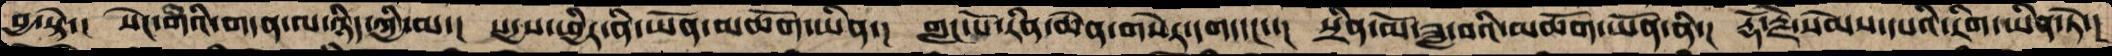བྱ་སྟེ་།  སེང་གེའི་གདན་ལ་ཉིད་ཀྱི་མ་།   སདྱས་ཕྱིར་ནི་ཡོན་མཆོག་ཡིན་།  གླང་པོ་རིན་ཆེན་གསེར་དག་དང་་།   སྲིན་མོ་ཟླ་བའི་མཆོག་ཡོན་ནི་།  རྡོ་རྗེ་སེམས་དཔའི་རིག་ཡིན་ཏེ་།
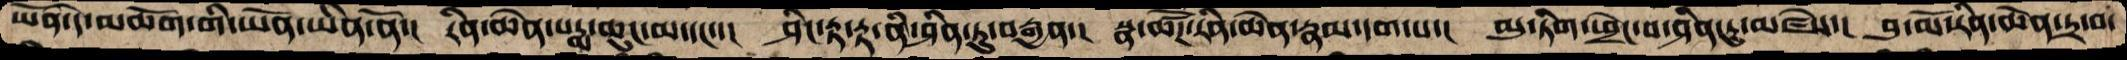ཡོན་དེ་མཆོག་གི་ཡོན་ཡིན་ནོ་།   རིན་ཆེན་པདྨ་ཆུང་མ་དང་་།   ཤིང་རྟ་རྟ་ནི་ཤིན་ཏུ་བརྒྱན་།   སྣ་ཚོཌ་རིན་ཆེན་རྣམ་དག་པ་།  མུ་ཏིག་ཕྲེང་བ་ཤིན་ཏུ་མཛེས་།  བུ་མོ་རིན་ཆེན་དྲ་བ་
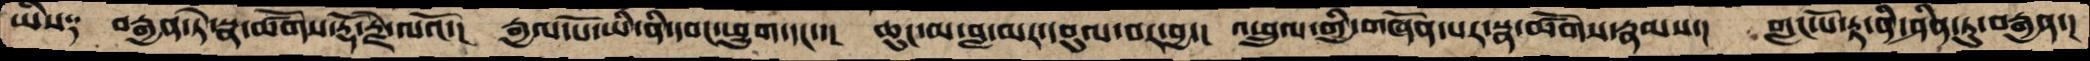ཡིས༑    བརྒྱན་ཏེ་སྣ་ཚོགས་རྡོ་རྗེ་ལའོ་།  རྒྱལ་པོ་ཡི་ནི་དབང་ཕྱུག་དང་་།  ཆུང་མ་བླ་མར་དབུལ་བར་བྱ་།  འཕྲུལ་གྱི་གཞོན་པར་སྣ་ཚོགས་རྣམས་།   གླང་པོ་རྟ་ནི་ཤིན་ཏུ་བརྒྱན་།
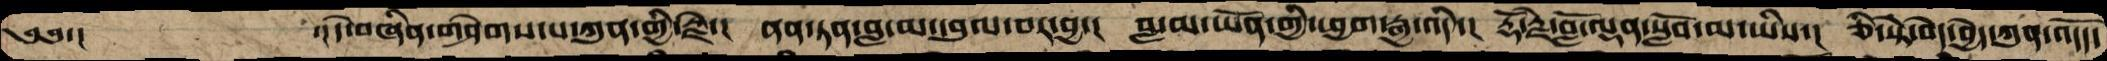༄༅་།             ་།དེ་བཞིན་གཤེགས་པ་ཀུན་གྱི་རྗེ་།  ནན་ཏན་བླ་མ་དབུལ་བར་བྱ་།   བླ་མ་ཡོན་གྱི་ཕྱག་རྒྱ་འདི་།  རྡོ་རྗེ་བློ་ལྡན་སློབ་མ་ཡིས་།  ཅི་སྟེ་བདེ་བྱེད་ཀུན་འདོད་
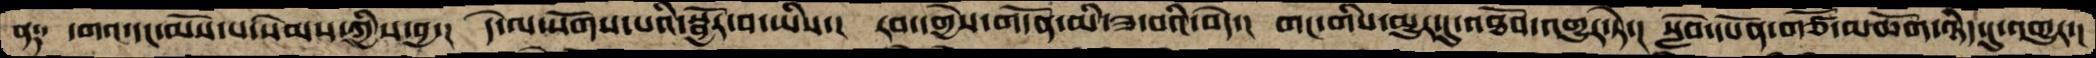ན༑  དགའ་དང་མོས་པ་སེམས་ཀྱིས་བྱ་།  དེ་ལ་སོགས་པའི་སྦྱོར་བ་ཡིས་།  རབ་དགྱེས་གདོན་མི་ཟ་བའི་བདེ་།  གང་གིས་མྱུར་དུ་འཐོབ་འགྱུར་ཏེ་།  སློབ་དཔོན་གཙོ་མཆོག་ཉིད་དུ་འགྱུར་།
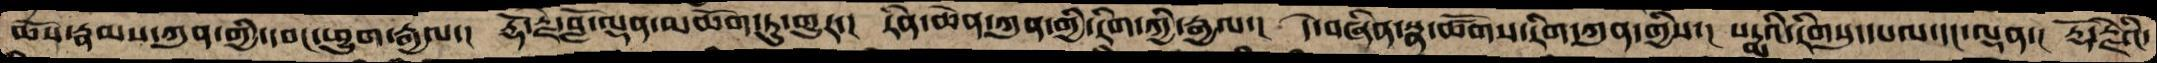ཆོས་རྣམས་ཀུན་གྱི་དབང་ཕྱུག་རྒྱལ་།  རྡོ་རྗེ་བློ་ལྡན་མཆོག་ཏུ་གྱུར་།   རིན་ཆེན་ཀུན་གྱི་རིག་ཀྱི་རྒྱལ་།  དེ་བཞིན་སྣ་ཚོགས་རིག་ཀུན་གྱིས་།  པདྨའི་རིགསུ་དཔལ་དང་ལྡན་།  རྡོ་རྗེའི་
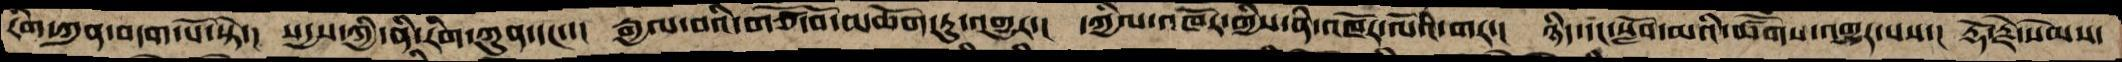རིག་ཀུན་བདག་པོ་སྟེ་།  སདྱས་ཀྱི་ནི་རིག་ཀུན་དང་་།  རྒྱལ་བའི་གཙོ་བོ་མཆོག་ཏུ་འགྱུར་།  དཀྱིལ་འཁོར་གྱིས་ནི་འཁོར་ལོའི་གར་།  ཉིད་དང་སློབ་མའི་ཚོགས་འགྱུར་པས་།  རྡོ་རྗེ་སེམས་
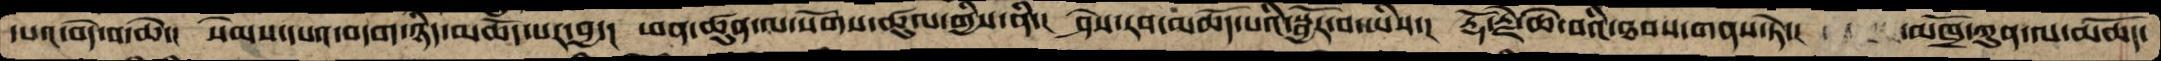དཔའ་བདེ་བ་ཆེ་།  སེམས་དཔའ་བདག་ཉིད་མཆོད་པར་བྱ་།  ཕན་ཚུན་ལ་སོགས་ཚུལ་གྱིས་ནི་།  ཤེས་རབ་མཆོད་པའི་སྦྱོར་བ་ཡིས་།  རྡོ་རྗེ་ཆེ་བའི་ཐབས་གནས་ཏེ་།   མཁྲོ་ཀུན་ལ་མཆོད་
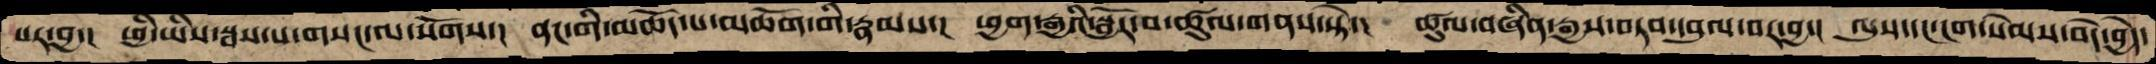པར་བྱ་།   ཕྱི་ཡིས་སྦས་པ་གསང་ལ་སོགས་།   ནང་གི་མཆོད་པ་མཆོག་གི་རྣམས་།  ཕྱག་རྒྱའི་སྦྱོར་བ་ཚུལ་གནས་ཏེ་།  ཚུལ་བཞིན་རྒྱས་བཏབ་དབུལ་བར་བྱ་།  ལུས་དང་ངག་སེམས་བདེ་བྱེད་
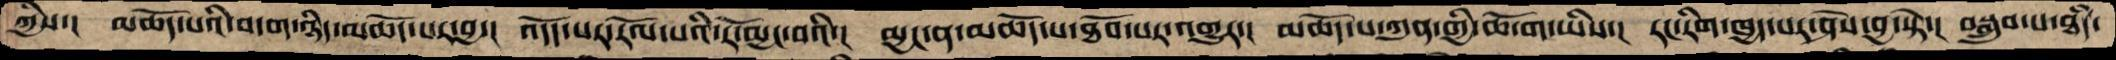ཀྱིས་།   མཆོད་པའི་བདག་ཉིད་མཆོད་པར་བྱ་།  འདོད་པར་རོལ་པའི་རོ་མྱང་བའི་།  མྱང་ན་མཆོད་པ་ཐོབ་པར་འགྱུར་།  མཆོད་པ་ཀུན་གྱི་ཆོ་ག་ཡིས་།  རང་རིག་ཁྱད་པར་ཤེས་བྱ་སྟེ་།   བསྒྲུབ་པ་ཐཾད་
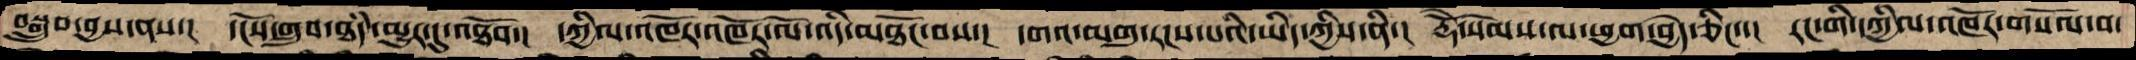བསྒྲུབ་བྱས་ནས་།  དངོས་གྲུབ་ཐཾད་མྱུར་དུ་འཐོབ་།  དཀྱིལ་འཁོར་འཁོར་ལོ་འདི་མཐོང་བས་།  དགའ་མགུ་རངས་པའི་ཡིད་ཀྱིས་ནི་།  རྡོེ་སེམས་ལ་ཕྱག་བྱེད་ཅིང་་།  རང་གི་དཀྱིལ་འཁོར་གསོལ་བ་
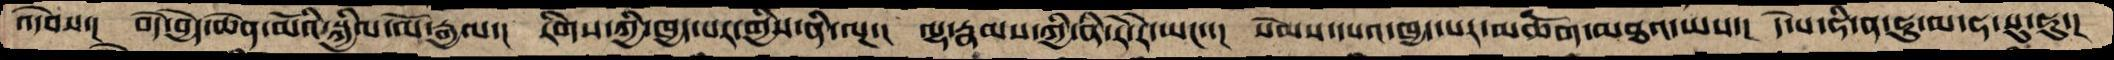འདེབས་།  བདེ་བྱེད་ཆེན་མོའི་སྐྱིལ་མོ་རྒྱལ་།  རིགས་ཀྱི་ཁྱད་པར་གྱིས་ནི་ལྔ་།   ལྷ་རྣམས་ཀྱི་ནི་རེ་རེ་ཡང་་།  སེམས་དཔའ་ཁྱད་པར་མཆོག་མཐའ་ཡས་།  དེ་པ་ཧི་ན་ཧུ་མ་ཧ་སུ་ཧུ་།
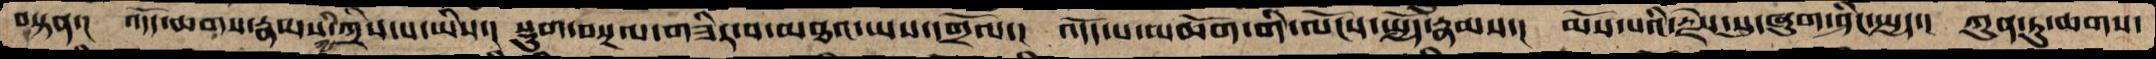བསྟན་། འདོད་ཆགས་རྣམས་ཀྱི་ཀྲིས་པ་ཡིས་། སྡུག་བསྔལ་གཟིར་བ་མཐའ་ཡས་དགྲོལ་། འདོད་པ་མཆོག་གི་ལོངས་སྤྱོད་རྣམས་། མོས་པའི་རྗེས་སུ་ཞུག་ཤིང་སྤྱད་། ཀུན་ཏུ་ཆགས་
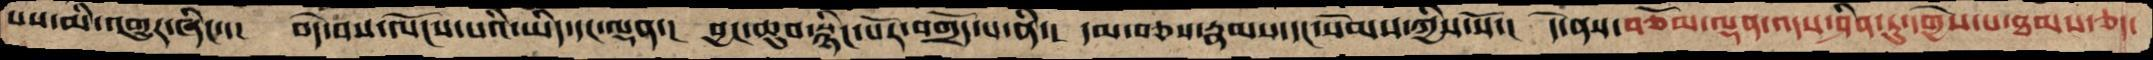པས་མི་འགྱུར་ཞིང་་།  བདེ་བས་ལོངས་པའི་ཡིད་དང་ལྡན་།  བྱང་ཆུབ་སྙིང་པོར་བགྲོད་པ་ནི་།  དམ་བཅས་རྣམས་དང་སེམས་ཀྱིས་སོ་།  དེ་ནས་བཅོམ་ལྡན་འདས་ཤིན་ཏུ་དགྱེས་པ་ཐམས་ཅད་
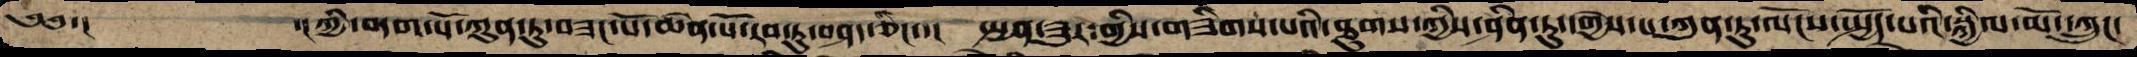༄༅་།          ་།ཀྱི་བདག་པོ་ཀུན་ཏུ་བཟང་པོ་ཆེན་པོ་རབ་ཏུ་བཤད་ཅིང་་།  སྤྱན་ཟུར་གྱིས་གཟིགས་པའི་ཐུགས་ཀྱིས་ཤིན་ཏུ་དགྱེས་པ་ཀུན་ཏུ་ལོངས་སྤྱོད་པའི་སྐྱིལ་མོ་དཀྲུང་
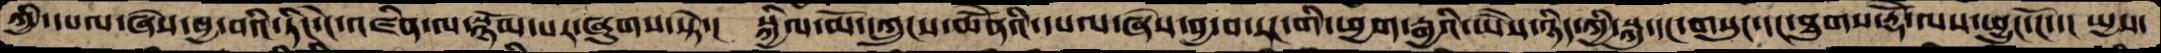ཀྱི་དཔལ་ཞེས་བྱ་བའི་ཏིང་ངེ་འཛིན་ལ་སྙོམ་པར་ཞུགས་སྟེ་།  སྐྱིལ་མོ་དཀྲུངས་ཆེནོའི་དཔལ་ཞེས་བྱ་བ་རང་གི་ཕྱག་རྒྱའི་ཡཻས་ཉིད་ཀྱི་སྐུ་དང་གསུང་དང་ཐུགས་རྡོེ་ལས་ཕྱུང་ངོ་་།  ཡྱས་
